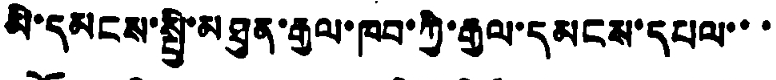མི་དམངས་སྤྱི་མཐུན་རྒྱལ་ཁབ་ཀྱི་རྒྱལ་དམངས་དཔལ་་་
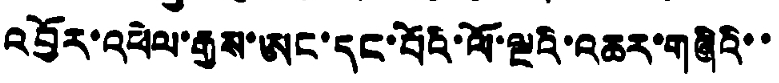འབྱོར་འཕེལ་རྒྱས་ཨང་དང་པོའི་ལོ་ལྔའི་འཆར་གཞིའི་་
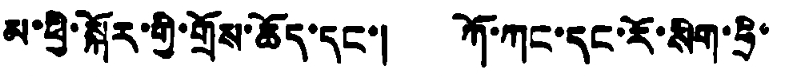མ་ཕྱི་སྐོར་གྱི་གྲོས་ཆོད་དང་། ཀོ་ཀང་དང་རོ་སིག་ཧྲི་
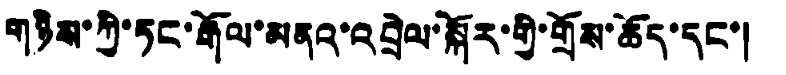གཉིས་ཀྱི་ཏང་རྒོལ་མནའ་འབྲེལ་སྐོར་གྱི་གྲོས་ཆོད་དང་།
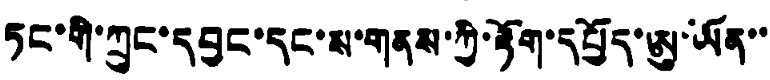ཏང་གི་ཀྲུང་དབྱང་དང་ས་གནས་ཀྱི་རྟོག་དཔྱོད་ཨུ་ཡོན་་
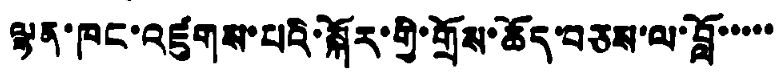ལྷན་ཁང་འཛུགས་པའི་སྐོར་གྱི་གྲོས་ཆོད་བཅས་ལ་བློ་་་་་
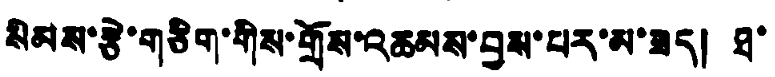སེམས་རྩེ་གཅིག་གིས་གྲོས་འཆམས་བྱས་པར་མ་ཟད། ཐ་
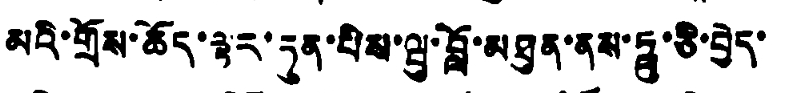མའི་གྲོས་ཆོད་ལྟར་ཏུན་པིས་ཝུ་བློ་མཐུན་ནས་ཧྥུ་ཅི་བྱེད་
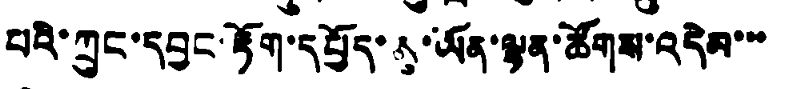པའི་ཀྲུང་དབྱང་རྟོག་དཔྱོད་ཨུ་ཡོན་ལྷན་ཚོགས་འདེམ་་་
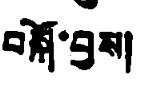བསྐོ་བྱས།
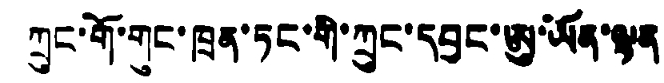ཀྲུང་གོ་གུང་ཁྲན་ཏང་གི་ཀྲུང་དབྱང་ཨུ་ཡོན་ལྷན
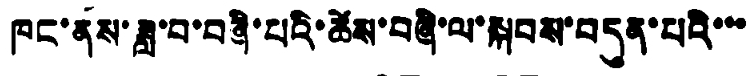ཁང་ནས་ཟླ་བ་བཞི་པའི་ཚེས་བཞི་ལ་སྐབས་བདུན་པའི་་་
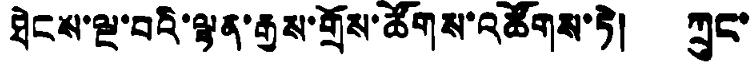ཐེངས་ལྔ་བའི་ལྷན་རྒྱས་གྲོས་ཚོགས་འཚོགས་ཏེ། ཀྲུང་
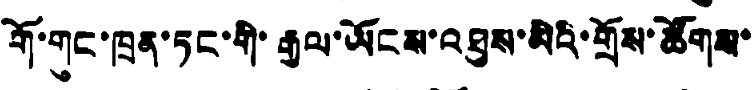གོ་གུང་ཁྲན་ཏང་གི་རྒྱལ་ཡོངས་འཐུས་མིའི་གྲོས་ཚོགས་
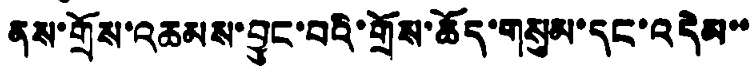ནས་གྲོས་འཆམས་བྱུང་བའི་གྲོས་ཆོད་གསུམ་དང་འདེམ་་
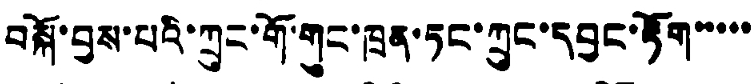བསྐོ་བྱས་པའི་ཀྲུང་གོ་གུང་ཁྲན་ཏང་ཀྲུང་དབྱང་རྟོག་་་་་
